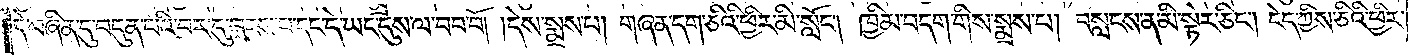དེ་བཞིན་དུ་བདུན་པའི་བར་དུ་བླངས་པ་དང་དེ་ཡང་དུས་ལ་བབ་བོ། །དེས་སྨྲས་པ། གཞན་དག་ཅིའི་ཕྱིར་མི་སློང༌། ཁྱིམ་བདག་གིས་སྨྲས་པ། བསླངས་ན་མི་སྟེར་ཅིང༌། ངེད་ཀྱིས་ཅིའི་ཕྱིར་
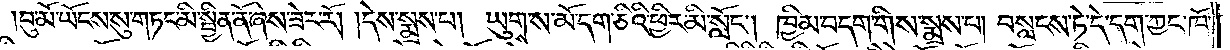བུ་མོ་ཡོངས་སུ་གཏང་མི་སྦྱིན་ནོ་ཞེས་ཟེར་རོ། །དེས་སྨྲས་པ། ཡུགས་མོ་དག་ཅིའི་ཕྱིར་མི་སློང༌། ཁྱིམ་བདག་གིས་སྨྲས་པ། བསླངས་ཏེ་དེ་དག་ཀྱང་ཁོ་
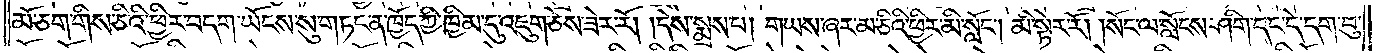མོ་ཅག་གིས་ཅིའི་ཕྱིར་བདག་ཡོངས་སུ་གཏང་ན་ཁྱོད་ཀྱི་ཁྱིམ་དུ་འཇུག་ཅེས་ཟེར་རོ། །དེས་སྨྲས་པ། གཡས་ཞར་མ་ཅིའི་ཕྱིར་མི་སློང༌། མི་སྟེར་རོ། །སོང་ལ་སློངས་ཤིག་དང་དེ་དག་བུ་
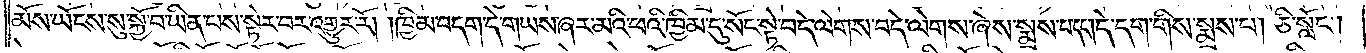མོས་ཡོངས་སུ་སྐྱོ་བ་ཡིན་པས་སྟེར་བར་འགྱུར་རོ། །ཁྱིམ་བདག་དེ་གཡས་ཞར་མའི་ཕའི་ཁྱིམ་དུ་སོང་སྟེ་བདེ་ལེགས་བདེ་ལེགས་ཞེས་སྨྲས་པ་དང༌། དེ་དག་གིས་སྨྲས་པ། ཅི་སློང༌།
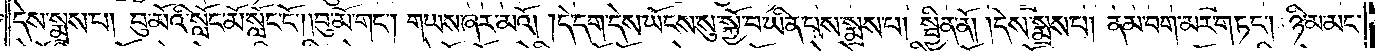དེས་སྨྲས་པ། བུ་མོའི་སློང་མོ་སློང་ངོ༌། །བུ་མོ་གང༌། གཡས་ཞར་མའོ། །དེ་དག་དེས་ཡོངས་སུ་སྐྱོ་བ་ཡིན་པས་སྨྲས་པ། སྦྱིན་ནོ། །དེས་སྨྲས་པ། ནམ་བག་མར་གཏང༌། ཉི་མ་མང་
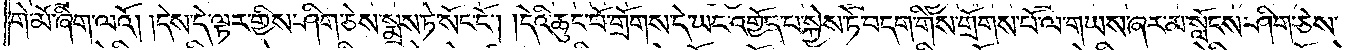གེ་མོ་ཞིག་ལའོ། །དེས་དེ་ལྟར་གྱིས་ཤིག་ཅེས་སྨྲས་ཏེ་སོང་ངོ༌། །དེའི་ཆུང་པོ་གྲོགས་དེ་ཡང་འགྱོད་པ་སྐྱེས་ཏེ་བདག་གིས་གྲོགས་པོ་ལ་གཡས་ཞར་མ་སློངས་ཤིག་ཅེས་
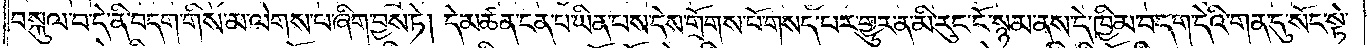བསྐུལ་བ་དེ་ནི་བདག་གིས་མ་ལེགས་པ་ཞིག་བྱས་ཏེ། དེ་མཚན་ངན་པ་ཡིན་པས་དེས་གྲོགས་པོ་གསད་པར་གྱུར་ན་མི་རུང་ངོ་སྙམ་ནས་དེ་ཁྱིམ་བདག་དེའི་གན་དུ་སོང་སྟེ་
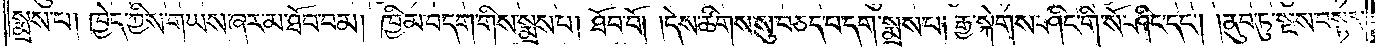སྨྲས་པ། ཁྱེད་ཀྱིས་གཡས་ཞར་མ་ཐོབ་བམ། ཁྱིམ་བདག་གིས་སྨྲས་པ། ཐོབ་བོ། །དེས་ཚིགས་སུ་བཅད་པ་དག་སྨྲས་པ། རྒྱ་སྐེགས་ཤིང་གི་སོ་ཤིང་དང༌། །ནུབ་ཏུ་སྔས་བསྟན་
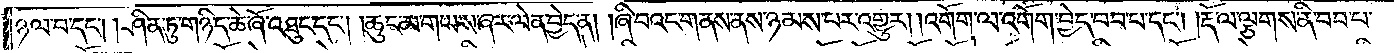ཉལ་བ་དང༌། །ཤིན་ཏུ་གཉིད་ཆེ་ཞོ་འཐུང་དང༌། །ཆུང་མ་གཡས་ཞར་ལེན་བྱེད་ན། །ཞི་བའང་གནས་ནས་ཉམས་པར་འགྱུར། །འགོག་ལ་འགོག་བྱེད་བབ་པ་དང༌། །རྡོ་ལ་ལྕགས་ནི་བབ་པ་
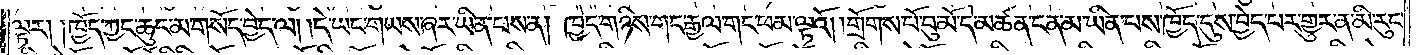ལྟར། །ཁྱོད་ཀྱང་ཆུང་མ་གསོད་བྱེད་ལ། །དེ་ཡང་གཡས་ཞར་ཡིན་པས་ན། ཁྱེད་གཉིས་གང་རྒྱལ་གང་ཕམ་ལྟའོ། །གྲོགས་པོ་བུ་མོ་ད་མཚན་ངན་མ་ཡིན་པས་ཁྱོད་དུས་བྱེད་པར་གྱུར་ན་མི་རུང་
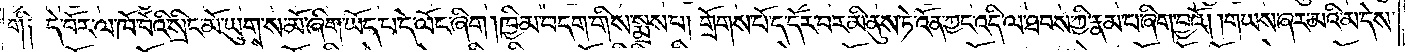གི་༑ དེ་བོར་ལ་ཁོ་བོའི་སྲིང་མོ་ཡུགས་ས་མོ་ཞིག་ཡོད་པ་དེ་ལོང་ཞིག །ཁྱིམ་བདག་གིས་སྨྲས་པ། གྲོགས་པོ་ད་དོར་བར་མི་ནུས་ཏེ་འོན་ཀྱང་འདི་ལ་ཐབས་ཀྱི་རྣམ་པ་ཞིག་བྱའོ། །གཡས་ཞར་མའི་མ་དེས་
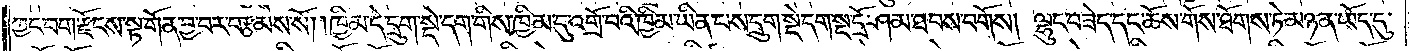ཀྱང་བག་རྫོངས་སྟ་གོན་བྱ་བར་བརྩམས་སོ། །ཁྱིམ་དེ་དྲུག་སྡེ་དག་གིས་ཁྱིམ་དུ་འགྲོ་བའི་ཁྱིམ་ཡིན་པས་དྲུག་སྡེ་དག་སྔ་དྲོ་ཤམ་ཐབས་བགོས། ལྷུང་བཟེད་དང་ཆོས་གོས་ཐོགས་ཏེ་མཉན་ཡོད་དུ་
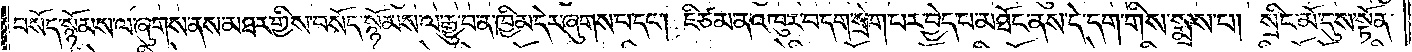བསོད་སྙོམས་ལ་ཞུགས་ནས་མཐར་གྱིས་བསོད་སྙོམས་ལ་རྒྱུ་བ་ན་ཁྱིམ་དེར་ཞུགས་པ་དང༌། ཇི་ཙམ་ན་འཁུར་བ་དག་སྲེག་པར་བྱེད་པ་མཐོང་ནས་དེ་དག་གིས་སྨྲས་པ། སྲིང་མོ་དུས་སྟོན་
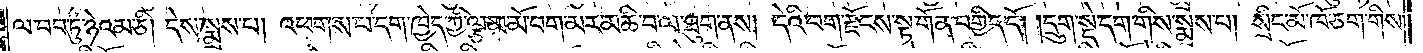ལ་བབ་ཏུ་ཉེའམ་ཅི། དེས་སྨྲས་པ། འཕགས་པ་དག་ཁྱེད་ཀྱི་ལྕམ་མོ་བག་མར་མཆི་བ་ལ་ཐུག་ནས། དེའི་བག་རྫོངས་སྟ་གོན་བགྱིད་དོ། །དྲུག་སྡེ་དག་གིས་སྨྲས་པ། སྲིང་མོ་ཁོ་ཅག་གིས་
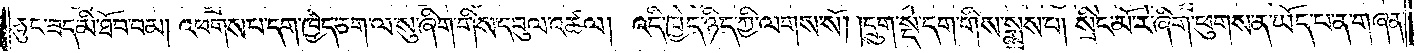ཅུང་ཟད་མི་ཐོབ་བམ། འཕགས་པ་དག་ཁྱེད་ཅག་ལ་སུ་ཞིག་གིས་དབུལ་འཚལ། འདི་ཁྱེད་ཉིད་ཀྱི་ལགས་སོ། །དྲུག་སྡེ་དག་གིས་སྨྲས་པ། སྲིང་མོ་རེ་ཞིག་ཕུགས་ན་ཡོད་པ་ན་གཞན་
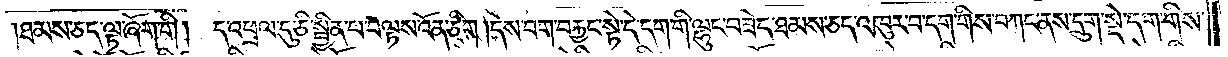ཐམས་ཅད་ལྟ་ཞོག་གི།  ད་འཕྲལ་དུ་ཅི་སྦྱིན་པ་བལྟས་འོན་ཅིག །དེས་བག་བརྐྱང་སྟེ་དེ་དག་གི་ལྷུང་བཟེད་ཐམས་ཅད་འཁུར་བ་དག་གིས་བཀང་ནས་དྲུག་སྡེ་དག་གིས་
